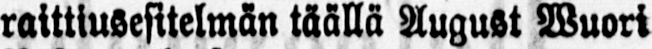raittiusesitelmän täällä August Wuori
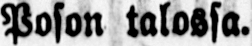Poson talossa.
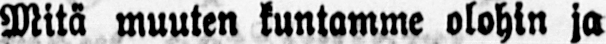Mitä muuten kuntamme olohin ja
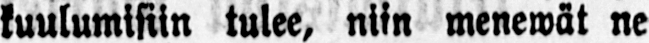kuulumisiin tulee, niin menewät ne
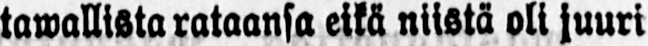tawallista rataansa eikä niistä oli juuri
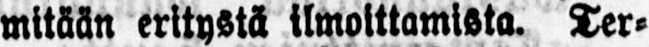mitään eritystä ilmoittamista. Ter-
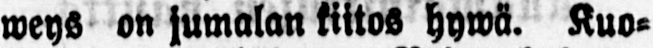weys on jumalan kiitos hywä. Kuo-
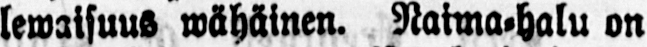lewaisuus wähäinen. Naima-halu on
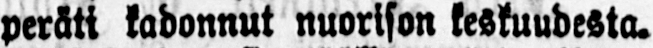peräti kadonnut nuorison keskuudesta.
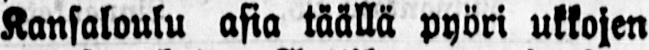Kansakoulu asia täällä pyöri ukkojen
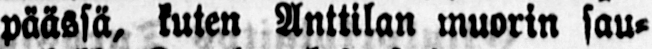päässä, kuten Anttilan muorin sau-
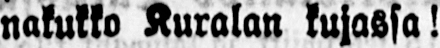nakukko Kuralan kujassa!
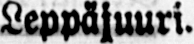Leppäjuuri.
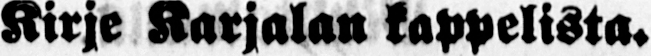Kirje Karjalan kappelista.
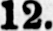12.
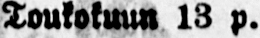Toukokuun 13 p.
